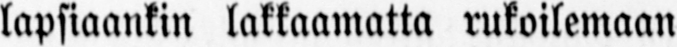lapsiaankin lakkaamatta rukoilemaan
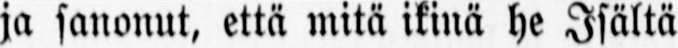ja sanonut, että mitä ikinä he Isältä
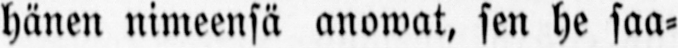hänen nimeensä anowat, sen he saa-
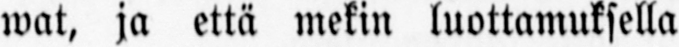wat, ja että mekin luottamuksella
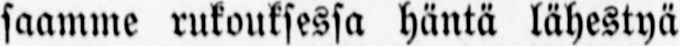saamme rukouksessa häntä lähestyä
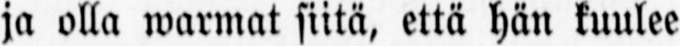ja olla warmat siitä, että hän kuulee
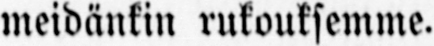meidänkin rukouksemme.
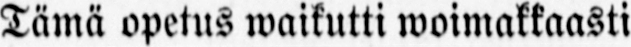Tämä opetus waikutti woimakkaasti
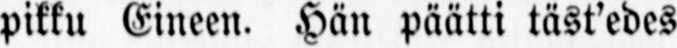pikku Eineen. Hän päätti täst'edes
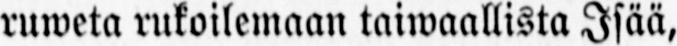ruweta rukoilemaan taiwaallista Isää,
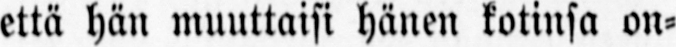että hän muuttaisi hänen kotinsa on-
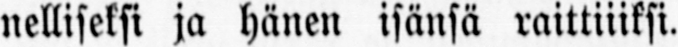nelliseksi ja hänen isänsä raittiiiksi.
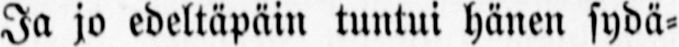Ja jo edeltäpäin tuntui hänen sydä-
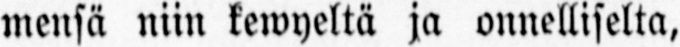mensä niin kewyeltä ja onnelliselta,
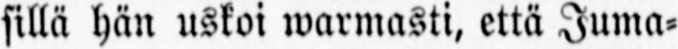sillä hän uskoi warmasti, että Juma-
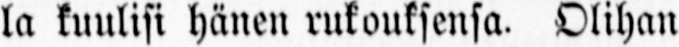la kuulisi hänen rukouksensa. Olihan
